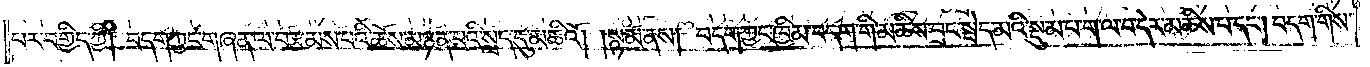པར་བགྱིད་ཀྱི། བདག་ཀྱང་གཞན་ལ་བརྩམས་པའི་ཆོས་མཉན་པའི་སླད་དུ་མཆིའོ། །སྙམ་ནས། བདག་ཀྱང་ཁྱིམ་བདག་གི་མཆིས་བྲང་སྦེད་མའི་སྡུམ་པ་ག་ལ་བ་དེར་མཆིས་པ་དང༌། བདག་གིས་
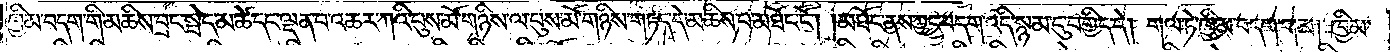ཁྱིམ་བདག་གི་མཆིས་བྲང་སྦེད་མ་ཚེ་དང་ལྡན་པ་འཆར་ཀའི་པུས་མོ་གཉིས་ལ་པུས་མོ་གཉིས་གཏད་དེ་མཆིས་པ་མཐོང་ངོ༌། །མཐོང་ནས་ཀྱང་བདག་འདི་སྙམ་དུ་བགྱིད་དེ། གལ་ཏེ་ཁྱིམ་བདག་གམ། ཁྱིམ་
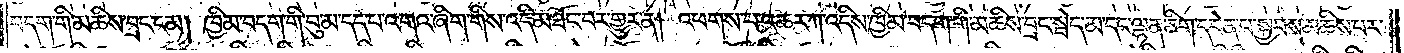བདག་གི་མཆིས་བྲང་ངམ། ཁྱིམ་བདག་གི་བུ་མ་དད་པ་འགའ་ཞིག་གིས་འདི་མཐོང་བར་གྱུར་ན། འཕགས་པ་འཆར་ཀ་འདིས་ཁྱིམ་བདག་གི་མཆིས་བྲང་སྦེད་མ་དང་ལྷན་ཅིག་དབེན་པ་སྐྱབས་མཆིས་པར་
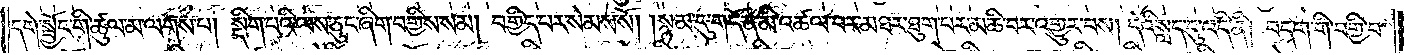དགེ་སྦྱོང་གི་ཚུལ་མ་ལགས་པ། སྡིག་པའི་ལས་ཅུང་ཞིག་བགྱིས་སམ། བགྱིད་པར་སེམས་སོ། །སྙམ་དུ་གདོན་མི་འཚལ་བར་མཐར་ཐུག་པར་མཆི་བར་འགྱུར་བས། དེའི་སླད་དུ་འདི་ནི། བདག་གི་བགྱི་བ་
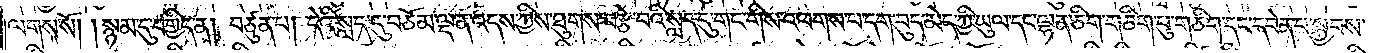ལགས་སོ། །སྙམ་དུ་བགྱིད་ན། བཙུན་པ། དེའི་སླད་དུ་བཅོམ་ལྡན་འདས་ཀྱིས་ཐུགས་བརྩེ་བའི་སླད་དུ་གང་གིས་འཕགས་པ་དག་བུད་མེད་ཀྱི་ཡུལ་དང་ལྷན་ཅིག་གཅིག་པུ་གཅིག་དང་དབེན་པ་སྐྱབས་
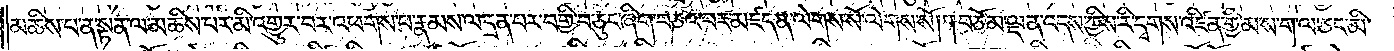མཆིས་པ་ན་སྟན་ལ་མཆིས་པར་མི་འགྱུར་བར་འཕགས་པ་རྣམས་ལ་དྲན་པར་བགྱི་བ་ཅུང་ཞིག་བཅའ་བར་མཛད་ན་ལེགས་སོ་ལེགས་སོ། །བཅོམ་ལྡན་འདས་ཀྱིས་རི་དྭགས་འཛིན་གྱི་མ་ས་ག་ལ་ཅང་མི་
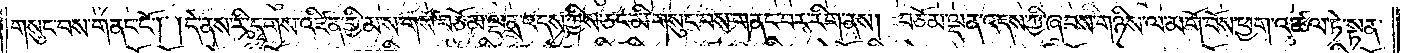གསུང་བས་གནང་ངོ༌། །དེ་ནས་རི་དྭགས་འཛིན་གྱི་མ་ས་གས་བཅོམ་ལྡན་འདས་ཀྱིས་ཅང་མི་གསུང་བས་གནང་བར་རིག་ནས། བཅོམ་ལྡན་འདས་ཀྱི་ཞབས་གཉིས་ལ་མགོ་བོས་ཕྱག་འཚལ་ཏེ་སྟན་
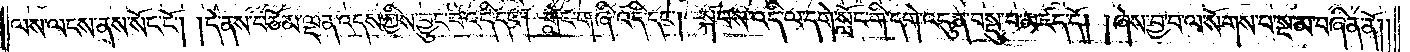ལས་ལངས་ནས་སོང་ངོ༌། །དེ་ནས་བཅོམ་ལྡན་འདས་ཀྱིས་བྱུང་བ་འདི་དང༌། གླེང་གཞི་འདི་དང༌། སྐབས་འདི་ལ་དགེ་སློང་གི་དགེ་འདུན་བསྡུ་བ་མཛད་དོ། །ཞེས་བྱ་བ་ལ་སོགས་པ་སྔ་མ་བཞིན་ནོ༎
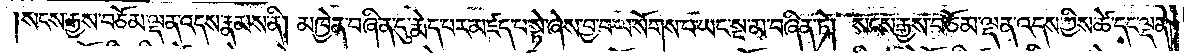སངས་རྒྱས་བཅོམ་ལྡན་འདས་རྣམས་ནི། མཁྱེན་བཞིན་དུ་རྨེད་པར་མཛད་པ་སྟེ་ཞེས་བྱ་བ་ལ་སོགས་པ་ཡང་སྔ་མ་བཞིན་ཏེ། སངས་རྒྱས་བཅོམ་ལྡན་འདས་ཀྱིས་ཚེ་དང་ལྡན་
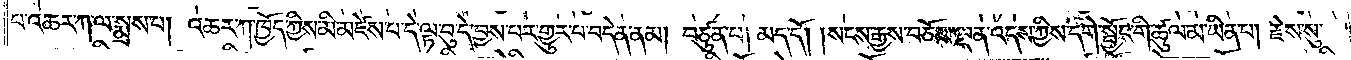པ་འཆར་ཀ་ལ་སྨྲས་པ། འཆར་ཀ་ཁྱོད་ཀྱིས་མི་མཛེས་པ་དེ་ལྟ་བུ་དེ་བྱས་པར་གྱུར་པ་བདེན་ནམ། བཙུན་པ། མད་དོ། །སངས་རྒྱས་བཅོམ་ལྡན་འདས་ཀྱིས་དགེ་སྦྱོང་གི་ཚུལ་མ་ཡིན་པ། རྗེས་སུ་
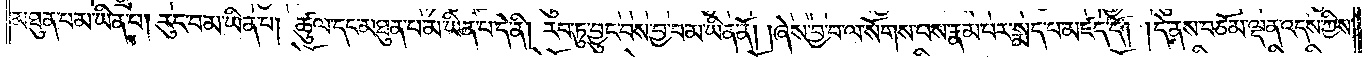མཐུན་པ་མ་ཡིན་པ། རུང་བ་མ་ཡིན་པ། ཚུལ་དང་མཐུན་པ་མ་ཡིན་པ་དེ་ནི། རབ་ཏུ་བྱུང་བས་བྱ་བ་མ་ཡིན་ནོ། །ཞེས་བྱ་བ་ལ་སོགས་བས་རྣམ་པར་སྨད་པ་མཛད་དོ། །དེ་ནས་བཅོམ་ལྡན་འདས་ཀྱིས་
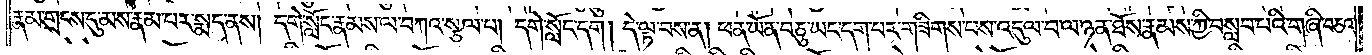རྣམ་གྲངས་དུ་མས་རྣམ་པར་སྨད་ནས། དགེ་སློང་རྣམས་ལ་བཀའ་སྩལ་པ། དགེ་སློང་དག །དེ་ལྟ་བས་ན། ཕན་ཡོན་བཅུ་ཡང་དག་པར་གཟིགས་པས་འདུལ་བ་ལ་ཉན་ཐོས་རྣམས་ཀྱི་བསླབ་པའི་གཞི་བཅའ་
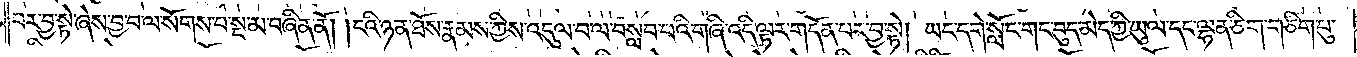བར་བྱ་སྟེ་ཞེས་བྱ་བ་ལ་སོགས་པ་སྔ་མ་བཞིན་ནོ། །ངའི་ཉན་ཐོས་རྣམས་ཀྱིས་འདུལ་བ་ལ་བསླབ་པའི་གཞི་འདི་ལྟར་གདོན་པར་བྱ་སྟེ། ཡང་དགེ་སློང་གང་བུད་མེད་ཀྱི་ཡུལ་དང་ལྷན་ཅིག་གཅིག་པུ་
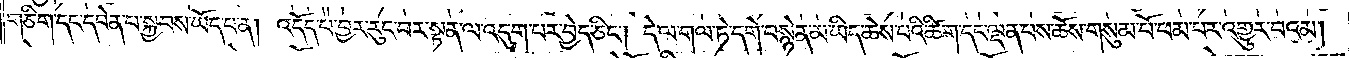གཅིག་དང་དབེན་པ་སྐྱབས་ཡོད་པ་ན། འདོད་པ་བྱར་རུང་བར་སྟན་ལ་འདུག་པར་བྱེད་ཅིང༌། དེ་ལ་གལ་ཏེ་དགེ་བསྙེན་མ་ཡིད་ཆེས་པའི་ཚིག་དང་ལྡན་པས་ཆོས་གསུམ་པོ་ཕམ་པར་འགྱུར་བའམ།
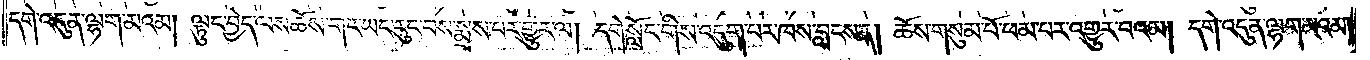དགེ་འདུན་ལྷག་མའམ། ལྟུང་བྱེད་ལས་ཆོས་གང་ཡང་རུང་བས་སྨྲས་པར་གྱུར་ལ། དགེ་སློང་གིས་འདུག་པར་ཁས་བླངས་ན། ཆོས་གསུམ་པོ་ཕམ་པར་འགྱུར་བའམ། དགེ་འདུན་ལྷག་མའམ།
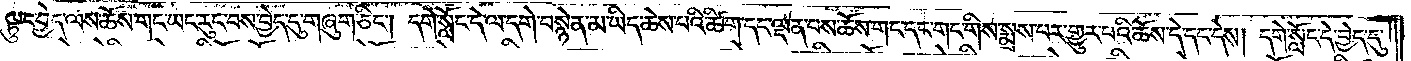ལྟུང་བྱེད་ལས་ཆོས་གང་ཡང་རུང་བས་བྱེད་དུ་གཞུག་ཅིང༌། དགེ་སློང་དེ་ལ་དགེ་བསྙེན་མ་ཡིད་ཆེས་པའི་ཚིག་དང་ལྡན་པས་ཆོས་གང་དང་གང་གིས་སྨྲས་པར་གྱུར་པའི་ཆོས་དེ་དང་དེས། དགེ་སློང་དེ་བྱེད་དུ་
